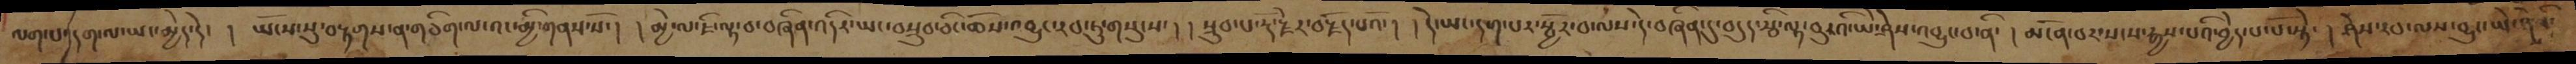ལག་པ་དག་ལ་ཡང་མྱེད་དེ་། ཡོངས་སུ་བརྟགས་ན་གཅིག་ལ་འང་མི་གནས་སོ་། །མྱི་ལ་ཇི་ལྟ་བ་བཞིན་འདིར་ཡང་བསྲུབ་ཅིང་ཆོས་འབྱུང་རབ་ཏུ་གསུངས་། །སྲུབ་པ་རྡོ་རྗེར་བརྗོད་པའོ་། །དེ་ཡང་དག་པར་སྦྱོར་བ་ལས་དེ་བཞིན་དུ་བདུད་རྩི་ལྟ་བུ་འི་ཡེ་ཤེས་འབྱུང་བ་ནི་། མངོན་པར་སངས་རྒྱས་པའི་བྱེད་པ་པོ་སྟེ་། ཤེས་རབ་ལས་བྱུང་ཡེ་ཤེས་
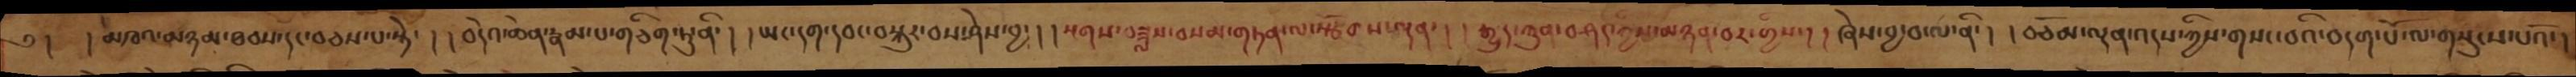༄།  །མཁའ་མཉམ་ཐབས་དང་བཅས་པ་སྟེ་། །བདེའ་ཆེན་རྣམ་པ་གཅིག་ཏུ་ནི་། །ཡང་དག་དབང་བསྐུར་བས་ཤེས་བྱ་། །སྔགས་བཟླས་བསམ་གཏན་ལ་སྩོགས་ལྡན་། །རྒྱུད་ཀུན་བཤད་གྱིས་མཉན་བར་གྱིས་། །ཞེས་བྱ་བ་ལ་ནི་། །བཅོམ་ལྡན་འདས་ཀྱིས་གསང་བའི་བདག་པོ་ལ་གསུངས་པའོ་།
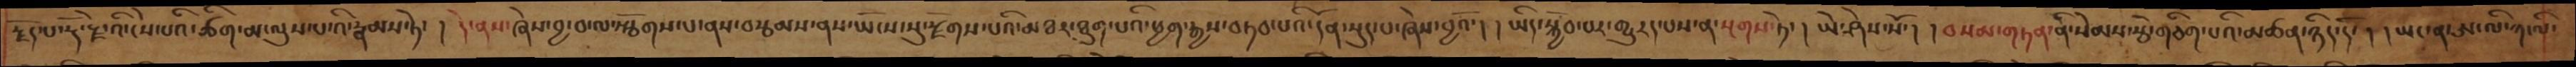རྗོད་པ་རྡོ་རྗེ་འི་ངེས་པའི་ཚིག་མ་ལུས་པ་འི་རྣམས་ཏེ་། དེ་ནས་ཞེས་བྱ་བ་ལ་སྩོགས་པ་ནས་བརྩམས་ནས་ཡོངས་སུ་རྫོགས་པའི་མཐར་ཐུག་པའི་ཕྱག་རྒྱས་བཏབ་པའི་དོན་སྡུད་པ་ཞེས་བྱའོ་། །ཡིད་སྐྱོབ་པར་གྱུརད་པས་ན་སྔགས་ཏེ་།  ཡེ་ཤེས་སོ་།  བསམ་གཏན་ནི་སེམས་རྩེ་གཅིག་པའི་མཚན་ཉིད་དོ་། །ཡང་ན་ཨ་ལི་ཀ་ལི་
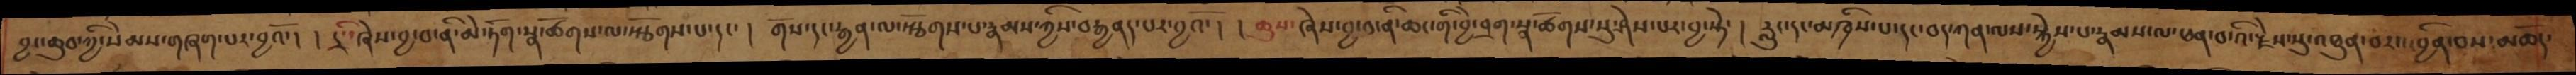བྱང་ཆུབ་ཀྱི་སེམས་གཞག་པར་བྱའོ་། །དྲི་་ཞེས་བྱ་བ་ནི་མེ་ཏོག་སྣ་ཚོགས་ལ་སྩོགས་པ་དང་།  གོས་དང་རྒྱན་ལ་སྩོགས་པ་རྣམས་ཀྱིས་བརྒྱནད་པར་བྱའོ་། །ཆུས་་ཞེས་བྱ་བ་ནི་ཆང་གི་བྱེ་བྲག་སྣ་ཚོགས་སུ་ཤེས་པར་བྱ་སྟེ་།  རླུང་དང་མཁྲིས་པ་དང་བད་ཀན་ལས་སྐྱེས་པ་རྣམས་ལ་ཕན་བ་འི་རྗེས་སུ་འཐུན་པར་དབྱིན་བས་མཆོད་
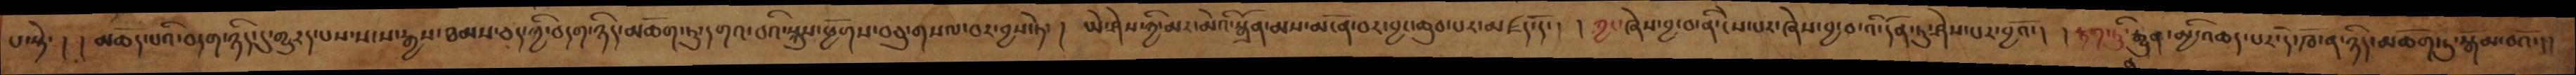པ་སྟེ་། མཆོད་པའི་བདག་ཉིད་དུ་གྱུར་པས་སངས་རྒྱས་ཐམས་ཅད་ཀྱི་བདག་ཉིད་མཆོག་ཏུ་དགའ་བའི་སྐུས་ཕྱོགས་བཅུ་གསལ་བར་བྱས་ཏེ་། ཡེ་ཤེས་ཀྱི་མར་མེའི་སྒྲོན་མས་མངོན་བར་བྱང་ཆུབ་པར་མཛད་དོ་། །ཀྱང་ཞེས་བྱ་བ་ནི་ངེས་པར་ཞེས་བྱ་བ་འི་དོན་ཏུ་ཤེས་པར་བྱའོ་། །རྟག་ཏུ་རྒྱུན་མྱི་འཆད་པར་དེ་ཁོ་ན་ཉིད་མཆོག་ཏུ་སྒོམ་བའོ་།།
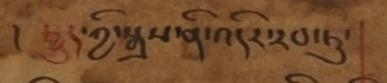། རྒྱུད་ཀྱི་སྒྲས་ནི་འདིར་རབ་ཏུ་
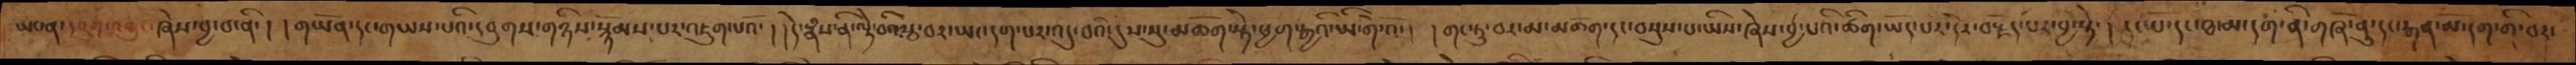ཡང་ན་དབུག་འབྱུང་ཞེས་བྱ་བ་ནི་། །གཡོན་དང་གཡས་པའི་དབུགས་གཉིས་སྙོམས་པར་འཇུག་པའོ་། །དེ་སྣཾས་ནི་ལྟེ་བའི་རྩ་བར་ཡང་དག་པར་འདུ་བའི་དུས་སུ་མཆོག་སྟེ་ཕྱག་རྒྱའི་ཡི་གེ་འོ་། །གང་ཏུ་བར་མ་མཆོག་དང་བསྡུས་པ་ཡིས་ཞེས་བྱ་པའི་ཚིག་ཡོད་པར་དེར་བརྗོད་པར་བྱ་སྟེ་། དང་པོ་དང་ཐ་མ་དག་ནི་གཞོ་ནུ་དང་རྒན་མོ་དག་གི་བར་
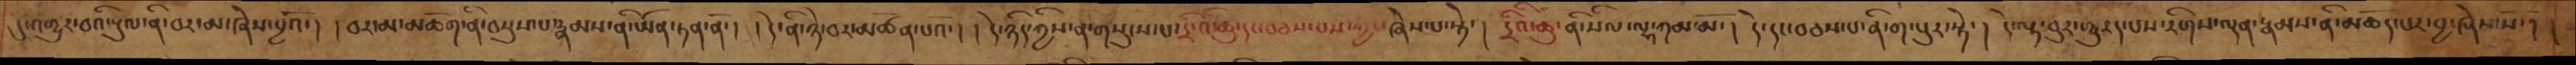དུ་འགྱུར་བའི་རྡུལ་ནི་བར་མ་ཞེས་བྱའོ་།  །བར་མ་མཆོག་ནི་བསྡུས་པ་རྣམས་ནི་ཡོན་ཏན་ནོ་།  །དེ་ནི་ཉེ་བར་མཚོན་པའོ་། །དེ་ཉིད་ཀྱིས་ན་གསུངས་པ་དྲི་འི་ཆུ་དང་བཅས་པས་ཀྱང་ཞེས་པ་སྟེ་།  དྲིའི་ཆུ་ནི་སིལ་ལྷ་ཀམ་མོ་། དེ་དང་བཅས་པ་ནི་ག་པུར་སྟེ་། དེ་ལྟ་བུར་གྱུརད་པས་རིགས་ལྡན་རྣམས་ནི་མཆོད་པར་བྱ་ཞེས་སོ་། །
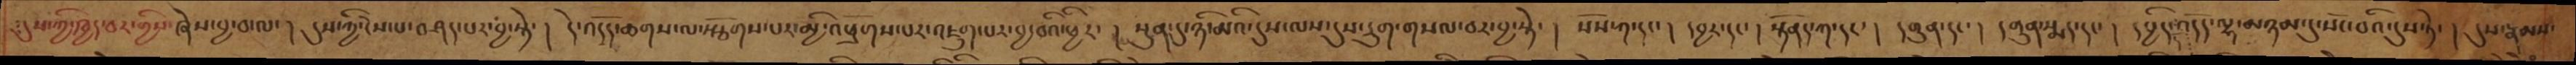༴དུས་ཀྱི་ཁྱད་པར་གྱིས་ཞེས་བྱ་བ་ལ་། དུས་ཀྱི་ངེས་པ་བཤད་པར་བྱ་སྟེ་། དེ་འདོད་ཆགས་ལ་སྩོགས་པར་མྱི་འཕྲོག་པར་འཇུག་པར་བྱ་བའི་ཕྱིར་། སྔུན་དུ་ཉི་མའི་དུས་ལས་དུས་དྲུག་གསལ་བར་བྱ་སྟེ་། སོས་ཀ་དང་། དབྱར་དང་། སྟོནད་ཀ་དང་། དགུན་དང་། དགུན་སྨད་དང་། དཔྱིད་འདོད་ལྷ་མཉམ་དུ་སོང་བའི་དུས་ཏེ་། དུས་རྣམས་
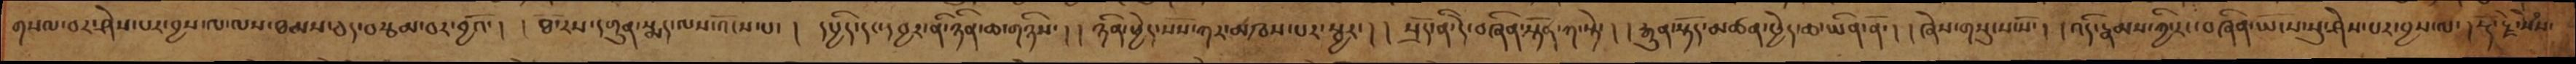གསལ་བར་ཤེས་པར་བྱས་ལ་ལས་ཐམས་ཅད་བརྩམ་བར་བྱའོ་། །ཐོ་རས་དགུན་སྨད་ལས་འོངས་པ་། དཔྱིད་དང་དབྱར་ནི་ཉིན་ཆ་གཉིས་། །ཉིན་ཕྱེད་པོས་གར་མཁས་པར་སྦྱར་། །སྲོད་ན་དེ་བཞིན་སྟོན་ཀ་སྟེ་། །རྒུན་སྟོད་མཚན་ཕྱེད་ཆ་ཡིན་ནོ་། །ཞེས་གསུངས་སོ་། །འདི་རྣམས་ཀྱི་རང་བཞིན་ཡོངས་སུ་ཤེས་པར་བྱས་ལ་། རྡོ་རྗེ་སེཾས་
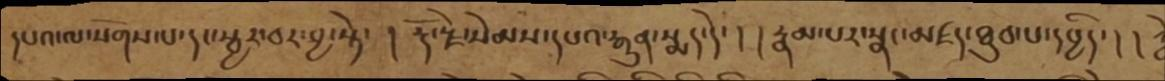དཔའ་ལ་སོགས་པ་དང་སྦྱར་བར་བྱ་སྟེ་། རྡོ་རྗེ་སེམས་དཔའ་རྒུན་སྨད་དེ་། །རྣམ་པར་སྣང་མཛད་ཐུབ་པ་དཔྱིད་། །ཀྱེ
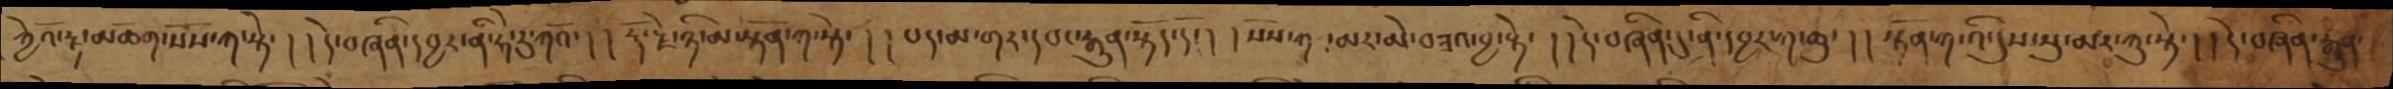ཀྱེའོ་རྟ་མཆོག་སོས་ཀ་སྟེ་། །དེ་བཞིན་དབྱར་ནི་ཧེ་རུ་ཀའོ་། །རྡོ་རྗེ་ཉི་མ་སྟོན་ཀ་སྟེ་། །པད་མ་གར་དབང་རྒུན་སྟོད་དོ་། །སོས་ཀ་མར་མེ་བཟའ་བྱ་སྟེ་། །དེ་བཞིན་དུ་ནི་དབྱར་ཀ་ཆུ་། །སྟོན་ཀའི་དུས་སུ་མར་ཁུ་སྟེ་། །དེ་བཞིན་རྒུན་
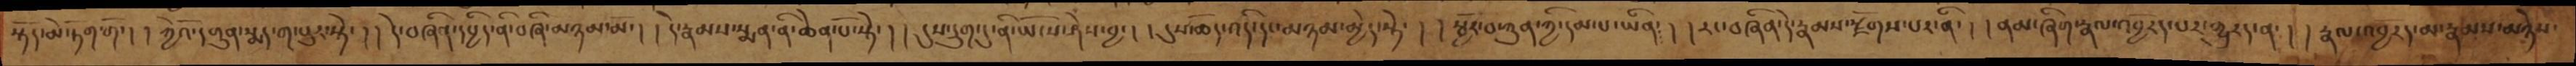སྟོད་མེ་ཏོག་གོ་། །ཀྱེའོ་དགུན་སྨད་ག་པུར་སྟེ་། །དེ་བཞིན་དཔྱིད་ནི་བཞི་མཉམ་མོ་། །དེ་རྣམས་སྨན་ནི་ཆེན་པོ་སྟེ་། །དུས་དྲུག་དུ་ནི་ཡོངས་ཤེས་བྱ་། །དུས་ཚོད་འདི་དང་མཉམ་མྱེད་སྟེ་། །སྦྱོར་བ་ཀུན་ཀྱི་དམ་པ་ཡིན་། །རང་བཞིན་དེ་རྣམས་རྫོགས་པར་ནི་། །ནམ་ཞིག་རྣལ་འབྱོརད་པར་གྱུརད་ན། །རྣལ་འབྱོརད་མ་རྣམས་མཉེས་
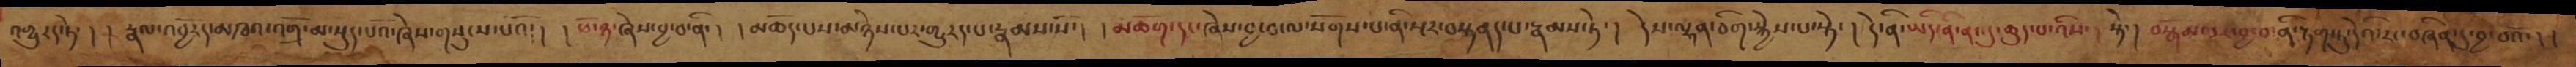འགྱུརད་ཏེ་། །རྣལ་འབྱོརད་མཁའ་འགྲོ་མ་སྡུད་པའོ་ཞེས་གསུངས་པའོ། །ཕོ་ཉ་ཞེས་བྱ་བ་ནི་། །མཆོད་པས་མཉེས་པར་གྱུརད་པ་རྣམས་སོ་། །མཆོག་དང་ཞེས་བྱ་བ་ལ་སོགས་པ་ནི་སྔར་བསྟནད་པ་རྣམས་ཏེ་། དེས་ལྷན་ཅིག་སྐྱེད་པ་སྟེ་། དེ་ནི་ཡིད་ནི་ནང་དུ་ཆུད་པ་འིས་ སྟེ་། བསྒོམ་པར་བྱ་བ་ནི་རྟག་ཏུ་དེའི་རང་བཞིན་དུ་བྱ་བའོ་། །
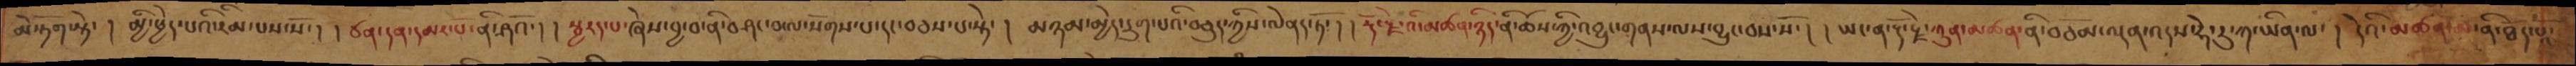མེ་ཏོག་སྟེ། མྱི་ཕྱེད་པའི་རིམ་པས་སོ་། །ཙན་དན་དམར་པོ་ནི་ཤའོ། །སྦྱརད་པ་ཞེས་བྱ་བ་ནི་བཤང་བ་ལ་སོགས་པ་དང་བཅས་པ་སྟེ། མཉམ་མྱེད་དྲུག་པའི་བཅུད་ཀྱིས་ལེནད་ཏོ། །རྡོ་རྗེ་འི་མཚན་ཉིད་ནི་ཆོས་ཀྱི་འབྱུང་གནས་ལས་བྱུང་བས་སོ་། །ཡང་ན་རྡོ་རྗེ་ཀུན་མཚན་ནི་བཅོམ་ལྡན་འདས་ཧེ་རུ་ཀ་ཡིན་ལ་། དེའི་མཚན་མ་ནི་ཐོད་པའོ
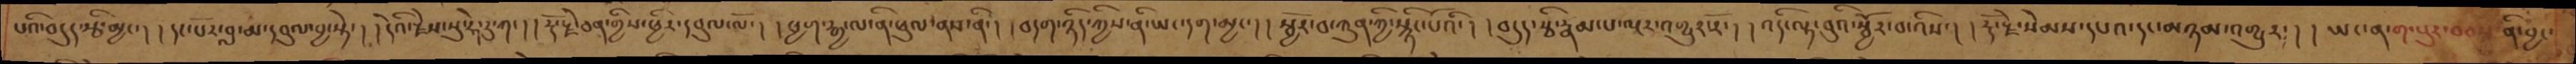པའི་བདུད་རྩི་མྱང་། །དང་པོར་བླ་མ་དབུལ་བྱ་སྟེ་། །དེའི་རྗེས་སུ་ཧེ་རུ་ཀ་། །རྡོ་རྗེ་ཅན་གྱིས་ཕྱིར་དབུལ་ལོ་། །ཕྱག་རྒྱ་ལ་ནི་ཕུལ་ནས་ནི་། །བདག་ཉིད་ཀྱིས་ནི་ཡང་དག་མྱང་། །སྦྱོར་བ་ཀུན་ཀྱི་སྙིང་པོའི་། །བདུད་རྩི་རྣམ་པ་ལྔར་འགྱུར་རོ་། །འདི་ལྟ་བུའི་སྦྱོར་བ་འིས་། །རྡོ་རྗེ་སེམས་དཔའ་དང་མཉམ་འགྱུར་། །ཡང་ན་ག་པུར་བབས་ནི་བྱང་
